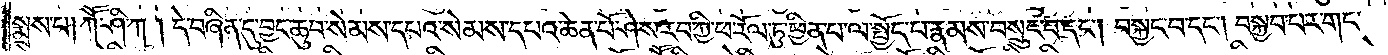སྨྲས་པ། ཀཽ་ཤི་ཀ། དེ་བཞིན་དུ་བྱང་ཆུབ་སེམས་དཔའ་སེམས་དཔའ་ཆེན་པོ་ཤེས་རབ་ཀྱི་ཕ་རོལ་ཏུ་ཕྱིན་པ་ལ་སྤྱོད་པ་རྣམས་བསྲུང་བ་དང༌། བསྐྱང་བ་དང༌། བསྐྱབ་པར་གང་
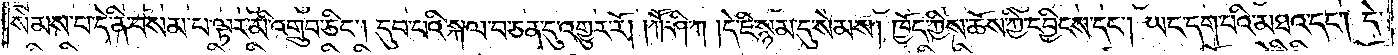སེམས་པ་དེ་ནི་བསམ་པ་ལྟར་མི་འགྲུབ་ཅིང༌། དུབ་པའི་སྐལ་བ་ཅན་དུ་འགྱུར་རོ། །ཀོ་ཤི་ཀ། དེ་ཇི་སྙམ་དུ་སེམས། ཁྱོད་ཀྱིས་ཆོས་ཀྱི་དབྱིངས་དང༌། ཡང་དག་པའི་མཐའ་དང༌། དེ་
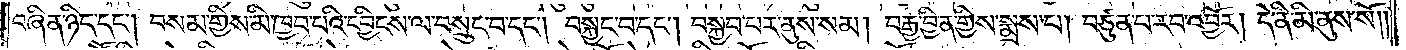བཞིན་ཉིད་དང༌། བསམ་གྱིས་མི་ཁྱབ་པའི་དབྱིངས་ལ་བསྲུང་བ་དང༌། བསྐྱང་བ་དང༌། བསྐྱབ་པར་ནུས་སམ། བརྒྱ་བྱིན་གྱིས་སྨྲས་པ། བཙུན་པ་རབ་འབྱོར། དེ་ནི་མི་ནུས་སོ། །
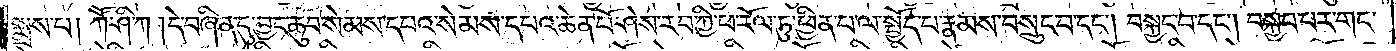སྨྲས་པ། ཀཽ་ཤི་ཀ། དེ་བཞིན་དུ་བྱང་ཆུབ་སེམས་དཔའ་སེམས་དཔའ་ཆེན་པོ་ཤེས་རབ་ཀྱི་ཕ་རོལ་ཏུ་ཕྱིན་པ་ལ་སྤྱོད་པ་རྣམས་བསྲུང་བ་དང༌། བསྐྱང་བ་དང༌། བསྐྱབ་པར་གང་
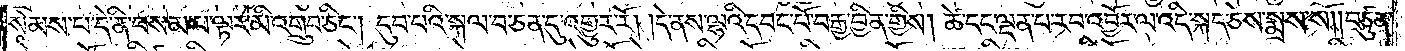སེམས་པ་དེ་ནི་བསམ་པ་ལྟར་མི་འགྲུབ་ཅིང༌། དུབ་པའི་སྐལ་བ་ཅན་དུ་འགྱུར་རོ། །དེ་ནས་ལྷའི་དབང་པོ་བརྒྱ་བྱིན་གྱིས། ཚེ་དང་ལྡན་པ་རབ་འབྱོར་ལ་འདི་སྐད་ཅེས་སྨྲས་སོ། །བཙུན་
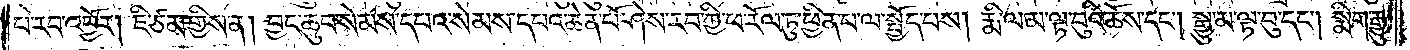པ་རབ་འབྱོར། ཇི་ཙམ་གྱིས་ན། བྱང་ཆུབ་སེམས་དཔའ་སེམས་དཔའ་ཆེན་པོ་ཤེས་རབ་ཀྱི་ཕ་རོལ་ཏུ་ཕྱིན་པ་ལ་སྤྱོད་པས། རྨི་ལམ་ལྟ་བུའི་ཆོས་དང༌། སྒྱུ་མ་ལྟ་བུ་དང༌། སྨིག་རྒྱུ་
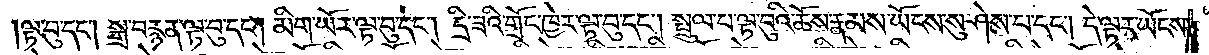ལྟ་བུ་དང༌། སྒྲ་བརྙན་ལྟ་བུ་དང༌། མིག་ཡོར་ལྟ་བུ་དང༌། དྲི་ཟའི་གྲོང་ཁྱེར་ལྟ་བུ་དང༌། སྤྲུལ་པ་ལྟ་བུའི་ཆོས་རྣམས་ཡོངས་སུ་ཤེས་པ་དང༌། དེ་ལྟར་ཡོངས་
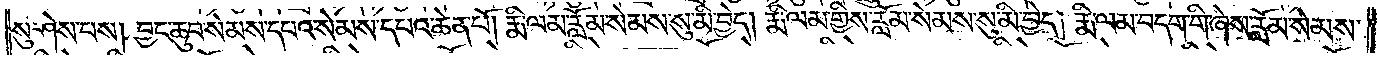སུ་ཤེས་པས། བྱང་ཆུབ་སེམས་དཔའ་སེམས་དཔའ་ཆེན་པོ། རྨི་ལམ་རློམ་སེམས་སུ་མི་བྱེད། རྨི་ལམ་གྱིས་རློམ་སེམས་སུ་མི་བྱེད། རྨི་ལམ་བདག་གི་ཞེས་རློམ་སེམས་
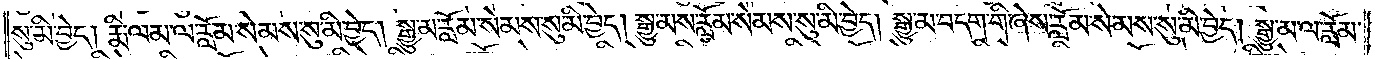སུ་མི་བྱེད། རྨི་ལམ་ལ་རློམ་སེམས་སུ་མི་བྱེད། སྒྱུ་མ་རློམ་སེམས་སུ་མི་བྱེད། སྒྱུ་མས་རློམ་སེམས་སུ་མི་བྱེད། སྒྱུ་མ་བདག་གི་ཞེས་རློམ་སེམས་སུ་མི་བྱེད། སྒྱུ་མ་ལ་རློམ་
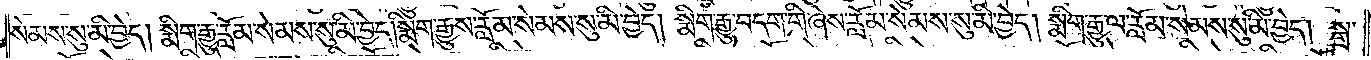སེམས་སུ་མི་བྱེད། སྨིག་རྒྱུ་རློམ་སེམས་སུ་མི་བྱེད། སྨིག་རྒྱུས་རློམ་སེམས་སུ་མི་བྱེད། སྨིག་རྒྱུ་བདག་གི་ཞེས་རློམ་སེམས་སུ་མི་བྱེད། སྨིག་རྒྱུ་ལ་རློམ་སེམས་སུ་མི་བྱེད། སྒྲ་
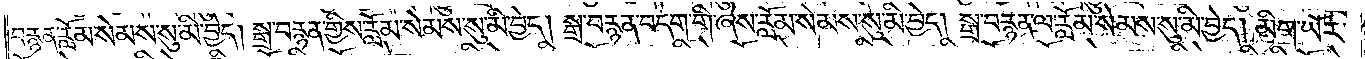བརྙན་རློམ་སེམས་སུ་མི་བྱེད། སྒྲ་བརྙན་གྱིས་རློམ་སེམས་སུ་མི་བྱེད། སྒྲ་བརྙན་བདག་གི་ཞེས་རློམ་སེམས་སུ་མི་བྱེད། སྒྲ་བརྙན་ལ་རློམ་སེམས་སུ་མི་བྱེད། མིག་ཡོར་
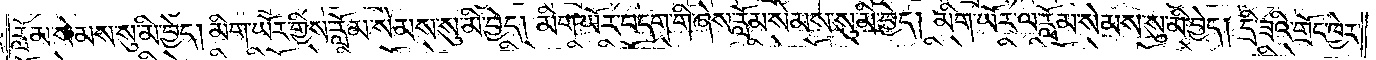རློམ་སེམས་སུ་མི་བྱེད། མིག་ཡོར་གྱིས་རློམ་སེམས་སུ་མི་བྱེད། མིག་ཡོར་བདག་གི་ཞེས་རློམ་སེམས་སུ་མི་བྱེད། མིག་ཡོར་ལ་རློམ་སེམས་སུ་མི་བྱེད། དྲི་ཟའི་གྲོང་ཁྱེར་
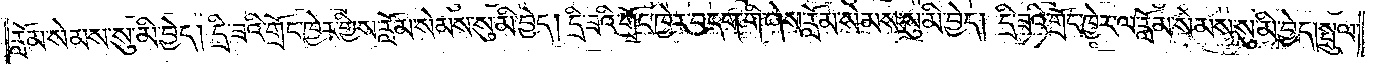རློམ་སེམས་སུ་མི་བྱེད། དྲི་ཟའི་གྲོང་ཁྱེར་གྱིས་རློམ་སེམས་སུ་མི་བྱེད། དྲི་ཟའི་གྲོང་ཁྱེར་བདག་གི་ཞེས་རློམ་སེམས་སུ་མི་བྱེད། དྲི་ཟའི་གྲོང་ཁྱེར་ལ་རློམ་སེམས་སུ་མི་བྱེད། སྤྲུལ་
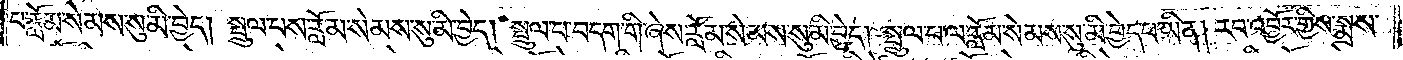པ་རློམ་སེམས་སུ་མི་བྱེད། སྤྲུལ་པས་རློམ་སེམས་སུ་མི་བྱེད། སྤྲུལ་པ་བདག་གི་ཞེས་རློམ་སེམས་སུ་མི་བྱེད། སྤྲུལ་པ་ལ་རློམ་སེམས་སུ་མི་བྱེད་པ་ཡིན། རབ་འབྱོར་གྱིས་སྨྲས་
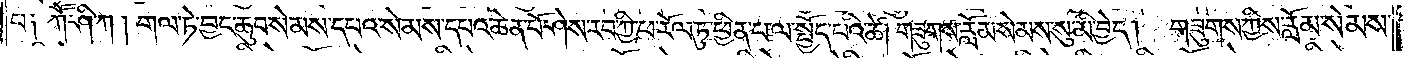པ༑ ཀཽ་ཤི་ཀ། གལ་ཏེ་བྱང་ཆུབ་སེམས་དཔའ་སེམས་དཔའ་ཆེན་པོ་ཤེས་རབ་ཀྱི་ཕ་རོལ་ཏུ་ཕྱིན་པ་ལ་སྤྱོད་པའི་ཚེ། གཟུགས་རློམ་སེམས་སུ་མི་བྱེད། གཟུགས་ཀྱིས་རློམ་སེམས་
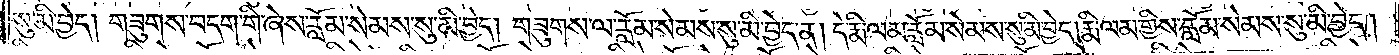སུ་མི་བྱེད། གཟུགས་བདག་གི་ཞེས་རློམ་སེམས་སུ་མི་བྱེད། གཟུགས་ལ་རློམ་སེམས་སུ་མི་བྱེད་ན། དེ་རྨི་ལམ་རློམ་སེམས་སུ་མི་བྱེད། རྨི་ལམ་གྱིས་རློམ་སེམས་སུ་མི་བྱེད།
